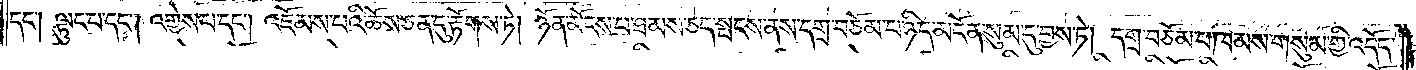དང༌། ལྟུང་པ་དང༌། འགྱེས་པ་དང༌། འཇོམས་པའི་ཆོས་ཅན་དུ་རྟོགས་ཏེ། ཉོན་མོངས་པ་ཐམས་ཅད་སྤངས་ནས་དགྲ་བཅོམ་པ་ཉིད་མངོན་སུམ་དུ་བྱས་ཏེ། དགྲ་བཅོམ་པ་ཁམས་གསུམ་གྱི་འདོད་
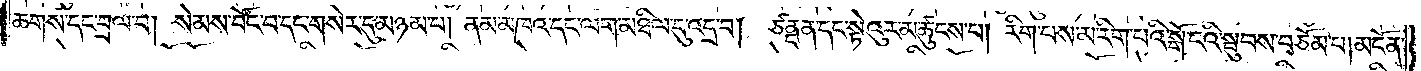ཆགས་དང་བྲལ་བ། སེམས་བོང་བ་དང་གསེར་དུ་མཉམ་པ། ནམ་མཁའ་དང་ལག་མཐིལ་དུ་འདྲ་བ། ཙནྡན་དང་སྟེའུར་མཚུངས་པ། རིག་པས་མ་རིག་པའི་སྒོ་ངའི་སྦུབས་བཅོམ་པ། མངོན་
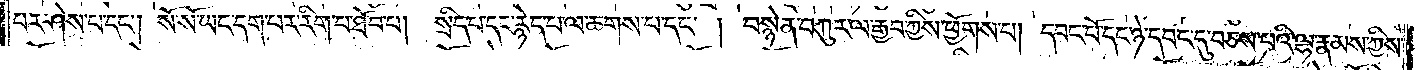པར་ཤེས་པ་དང༌། སོ་སོ་ཡང་དག་པར་རིག་པ་ཐོབ་པ། སྲིད་པ་དང་རྙེད་པ་ལ་ཆགས་པ་དང༌། བསྙེན་བཀུར་ལ་རྒྱབ་ཀྱིས་ཕྱོགས་པ། དབང་པོ་དང་ཉེ་དབང་དུ་བཅས་པའི་ལྷ་རྣམས་ཀྱིས་
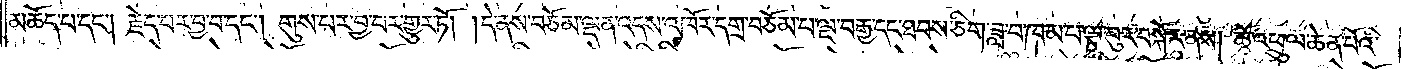མཆོད་པ་དང༌། རྗེད་པར་བྱ་བ་དང༌། གུས་པར་བྱ་བར་གྱུར་ཏོ། །དེ་ནས་བཅོམ་ལྡན་འདས་འཁོར་དགྲ་བཅོམ་པ་ལྔ་བརྒྱ་དང་ཐབས་ཅིག་ཟླ་བ་ཁམ་པ་ལྟ་བུར་བསྐོར་ནས། ཆོ་འཕྲུལ་ཆེན་པོའི་
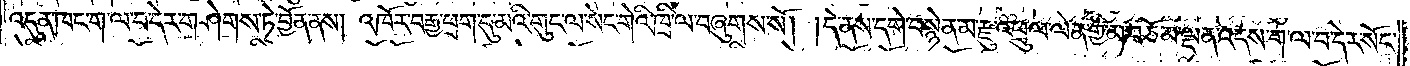འདུན་ཁང་ག་ལ་བ་དེར་གཤེགས་ཏེ་བྱོན་ནས། འཁོར་བརྒྱ་ཕྲག་དུ་མའི་གུང་ལ་སེང་གེའི་ཁྲི་ལ་བཞུགས་སོ། །དེ་ནས་དགེ་བསྙེན་མ་རྫུ་འཕྲུལ་ལེན་གྱི་མ་བཅོམ་ལྡན་འདས་ག་ལ་བ་དེར་སོང་
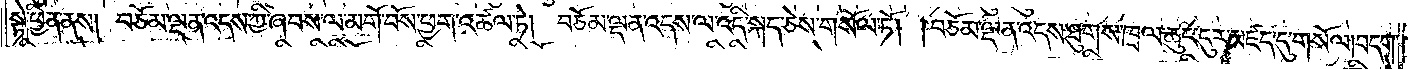སྟེ་ཕྱིན་ནས། བཅོམ་ལྡན་འདས་ཀྱི་ཞབས་ལ་མགོ་བོས་ཕྱག་འཚལ་ཏེ། བཅོམ་ལྡན་འདས་ལ་འདི་སྐད་ཅེས་གསོལ་ཏོ། །བཅོམ་ལྡན་འདས་ཐུགས་ཁྲལ་ཆུང་ངུར་མཛད་དུ་གསོལ། བདག་
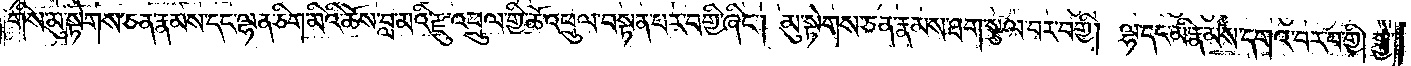གིས་མུ་སྟེགས་ཅན་རྣམས་དང་ལྷན་ཅིག་མིའི་ཆོས་བླ་མའི་རྫུ་འཕྲུལ་གྱི་ཆོ་འཕྲུལ་བསྟན་པར་བགྱི་ཞིང༌། མུ་སྟེགས་ཅན་རྣམས་ཐག་སྩལ་པར་བགྱི། ལྷ་དང་མི་རྣམས་དགའ་བར་བགྱི། སྐྱེ་
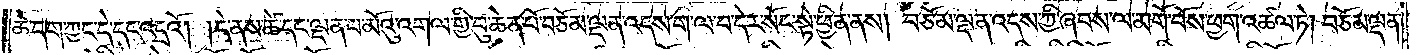ཆེ་དག་ཀྱང་དེ་དང་འདྲའོ། །དེ་ནས་ཚེ་དང་ལྡན་པ་མོའུ་འགལ་གྱི་བུ་ཆེན་པོ་བཅོམ་ལྡན་འདས་ག་ལ་བ་དེར་སོང་སྟེ་ཕྱིན་ནས། བཅོམ་ལྡན་འདས་ཀྱི་ཞབས་ལ་མགོ་བོས་ཕྱག་འཚལ་ཏེ། བཅོམ་ལྡན་
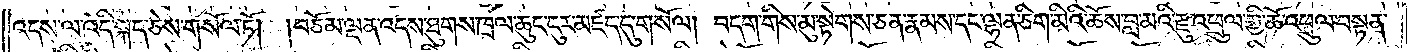འདས་ལ་འདི་སྐད་ཅེས་གསོལ་ཏོ། །བཅོམ་ལྡན་འདས་ཐུགས་ཁྲལ་ཆུང་ངུར་མཛད་དུ་གསོལ། བདག་གིས་མུ་སྟེགས་ཅན་རྣམས་དང་ལྷན་ཅིག་མིའི་ཆོས་བླ་མའི་རྫུ་འཕྲུལ་གྱི་ཆོ་འཕྲུལ་བསྟན་
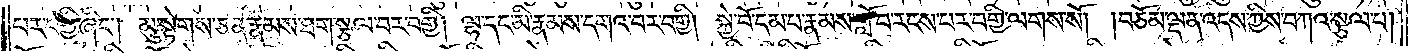པར་བགྱི་ཞིང༌། མུ་སྟེགས་ཅན་རྣམས་ཐག་སྩལ་བར་བགྱི། ལྷ་དང་མི་རྣམས་དགའ་བར་བགྱི། སྐྱེ་བོ་དམ་པ་རྣམས་གློ་བ་རངས་པར་བགྱི་ལགས་སོ། །བཅོམ་ལྡན་འདས་ཀྱིས་བཀའ་སྩལ་པ།
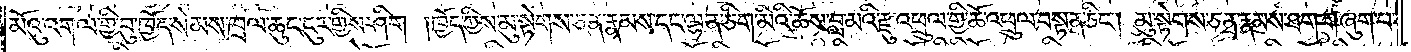མོའུ་འགལ་གྱི་བུ་ཁྱོད་སེམས་ཁྲལ་ཆུང་ངུར་གྱིས་ཤིག །ཁྱོད་ཀྱིས་མུ་སྟེགས་ཅན་རྣམས་དང་ལྷན་ཅིག་མིའི་ཆོས་བླ་མའི་རྫུ་འཕྲུལ་གྱི་ཆོ་འཕྲུལ་བསྟན་ཅིང༌། མུ་སྟེགས་ཅན་རྣམས་ཐག་གཞུག་པ་
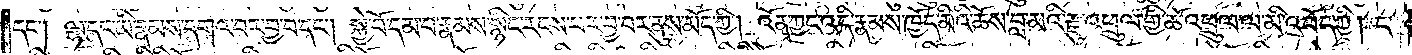དང༌། ལྷ་དང་མི་རྣམས་དགའ་བར་བྱ་བ་དང༌། སྐྱེ་བོ་དམ་པ་རྣམས་སྙིང་རངས་པར་བྱ་བར་ནུས་མོད་ཀྱི། འོན་ཀྱང་འདི་རྣམས་ཁྱོད་མིའི་ཆོས་བླ་མའི་རྫུ་འཕྲུལ་གྱི་ཆོ་འཕྲུལ་ལ་མི་འབོད་ཀྱི། ང་
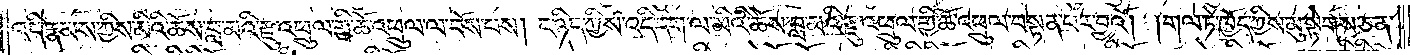འདི་རྣམས་ཀྱིས་མིའི་ཆོས་བླ་མའི་རྫུ་འཕྲུལ་གྱི་ཆོ་འཕྲུལ་ལ་བོས་པས། ང་ཉིད་ཀྱིས་འདི་དག་ལ་མིའི་ཆོས་བླ་མའི་རྫུ་འཕྲུལ་གྱི་ཆོ་འཕྲུལ་བསྟན་པར་བྱའོ། །གལ་ཏེ་ཁྱོད་ཀྱིས་མུ་སྟེགས་ཅན་
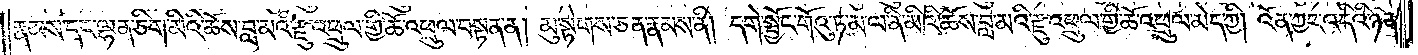རྣམས་དང་ལྷན་ཅིག་མིའི་ཆོས་བླ་མའི་རྫུ་འཕྲུལ་གྱི་ཆོ་འཕྲུལ་བསྟན་ན། མུ་སྟེགས་ཅན་རྣམས་ནི། དགེ་སྦྱོང་གོའུ་ཏ་མ་ལ་ནི་མིའི་ཆོས་བླ་མའི་རྫུ་འཕྲུལ་གྱི་ཆོ་འཕྲུལ་མེད་ཀྱི། འོན་ཀྱང་འདིའི་ཉན་
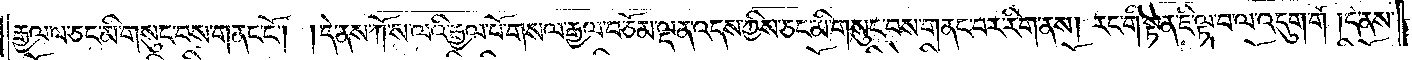རྒྱལ་ལ་ཅང་མི་གསུང་བས་གནང་ངོ༌། །དེ་ནས་ཀོ་ས་ལའི་རྒྱལ་པོ་གསལ་རྒྱལ་བཅོམ་ལྡན་འདས་ཀྱིས་ཅང་མི་གསུང་བས་གནང་བར་རིག་ནས། རང་གི་སྟན་ཇི་ལྟ་བ་ལ་འདུག་གོ །དེ་ནས་
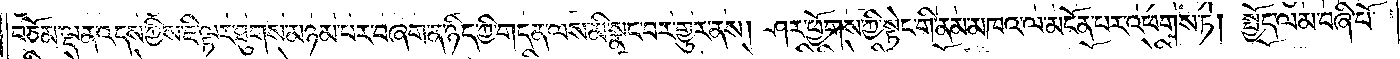བཅོམ་ལྡན་འདས་ཀྱིས་ཇི་ལྟར་ཐུགས་མཉམ་པར་བཞག་ན་ཉིད་ཀྱི་གདན་ལས་མི་སྣང་བར་གྱུར་ནས། ཤར་ཕྱོགས་ཀྱི་སྟེང་གི་ནམ་མཁའ་ལ་མངོན་པར་འཕགས་ཏེ། སྤྱོད་ལམ་བཞི་པོ་
